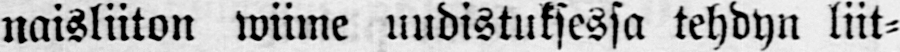naisliiton wiime uudistuksessa tehdyn liit-
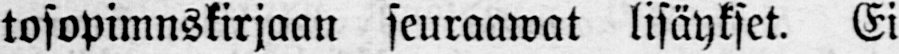tosopimnskirjaan seuraawat lisäykset. Ei
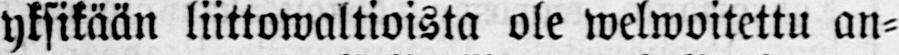yksikään liittowaltioista ole welwoitettu an-
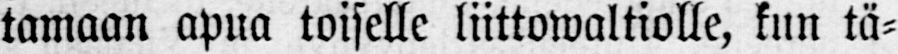tamaan apua toiselle liittowaltiolle, kun tä-
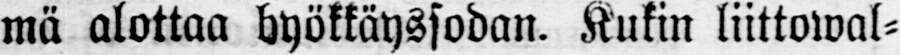mä alottaa hyökkäyssodan. Kukin liittowal-
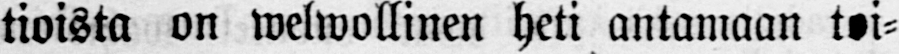tioista on welwollinen heti antamaan toi-
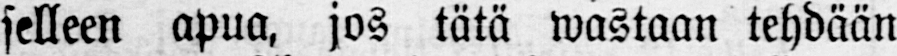selleen apua, jos tätä wastaan tehdään
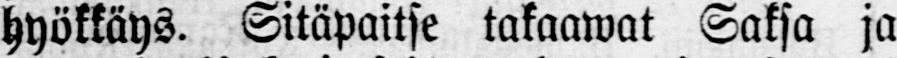hyökkäys. Sitäpaitse takaawat Saksa ja
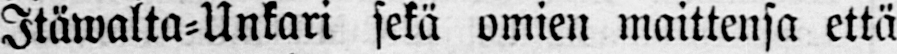Itäwalta-Unkari sekä omien maittensa että
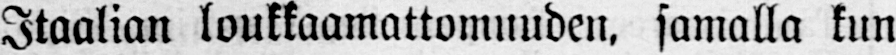Itaalian loukkaamattomuuden, samalla kun
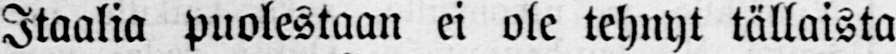Itaalia puolestaan ei ole tehnyt tällaista
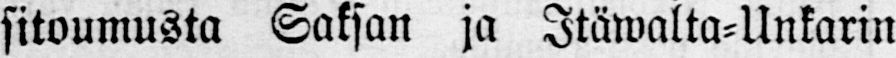sitoumusta Saksan ja Itäwalta-Unkarin
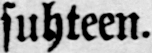suhteen.
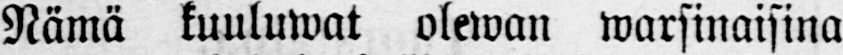Nämä kuuluwat olewan warsinaisina
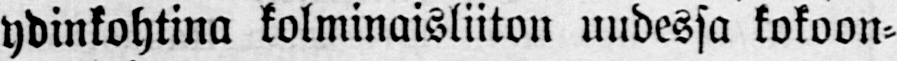ydinkohtina kolminaisliiton uudessa kokoon-
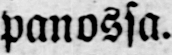panossa.
